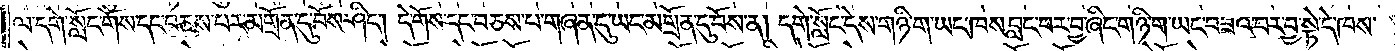ལ་དགེ་སློང་གོས་དང་བཅས་པར་མགྲོན་དུ་བོས་ཤིང༌། དེ་གོས་དང་བཅས་པ་གཞན་དུ་ཡང་མགྲོན་དུ་བོས་ན། དགེ་སློང་དེས་གཉི་ག་ཡང་ཁས་བླང་བར་བྱ་ཞིང་གཉི་ག་ཡང་བཟའ་བར་བྱ་སྟེ་དེ་ཁས་
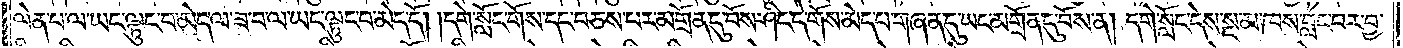ལེན་པ་ལ་ཡང་ལྟུང་བ་མེད་ལ་ཟ་བ་ལ་ཡང་ལྟུང་བ་མེད་དོ། །དགེ་སློང་གོས་དང་བཅས་པར་མགྲོན་དུ་བོས་ཤིང་དེ་གོས་མེད་པ་གཞན་དུ་ཡང་མགྲོན་དུ་བོས་ན། དགེ་སློང་དེས་སྔ་མ་ཁས་བླང་བར་བྱ་
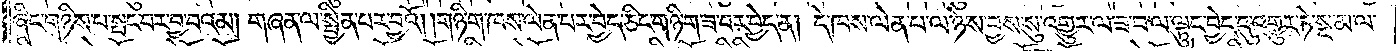ཞིང་གཉིས་པ་སྤང་བར་བྱ་བའམ། གཞན་ལ་སྦྱིན་པར་བྱའོ། །གཉི་ག་ཁས་ལེན་པར་བྱེད་ཅིང་གཉི་ག་ཟ་བར་བྱེད་ན། དེ་ཁས་ལེན་པ་ལ་ཉེས་བྱས་སུ་འགྱུར་ལ་ཟ་བ་ལ་ལྟུང་བྱེད་དུ་འགྱུར་ཏེ་སྔ་མ་ལ་
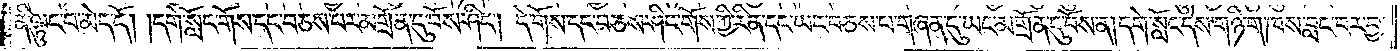ནི་ལྟུང་བ་མེད་དོ། །དགེ་སློང་གོས་དང་བཅས་པར་མགྲོན་དུ་བོས་ཤིང༌། དེ་གོས་དང་བཅས་ཤིང་གོས་ཀྱི་རིན་དང་ཡང་བཅས་པ་གཞན་དུ་ཡང་མགྲོན་དུ་བོས་ན། དགེ་སློང་དེས་གཉི་ག་ཁས་བླང་བར་བྱ་
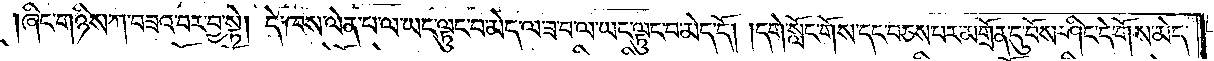ཞིང་གཉིས་ཀ་བཟའ་བར་བྱ་སྟེ། དེ་ཁས་ལེན་པ་ལ་ཡང་ལྟུང་བ་མེད་ལ་ཟ་བ་ལ་ཡང་ལྟུང་བ་མེད་དོ། །དགེ་སློང་གོས་དང་བཅས་པར་མགྲོན་དུ་བོས་ཤིང་དེ་གོས་མེད་
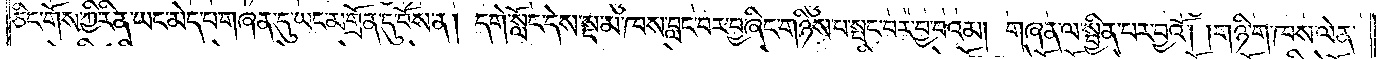ཅིང་གོས་ཀྱི་རིན་ཡང་མེད་པ་གཞན་དུ་ཡང་མགྲོན་དུ་བོས་ན། དགེ་སློང་དེས་སྔ་མ་ཁས་བླང་བར་བྱ་ཞིང་གཉིས་པ་སྤང་བར་བྱ་བའམ། གཞན་ལ་སྦྱིན་པར་བྱའོ། །གཉི་ག་ཁས་ལེན་
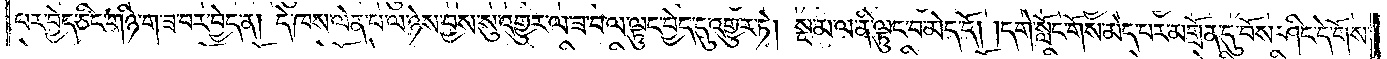པར་བྱེད་ཅིང་གཉི་ག་ཟ་བར་བྱེད་ན། དེ་ཁས་ལེན་པ་ལ་ཉེས་བྱས་སུ་འགྱུར་ལ་ཟ་བ་ལ་ལྟུང་བྱེད་དུ་འགྱུར་ཏེ། སྔ་མ་ལ་ནི་ལྟུང་བ་མེད་དོ། །དགེ་སློང་གོས་མེད་པར་མགྲོན་དུ་བོས་ཤིང་དེ་གོས་
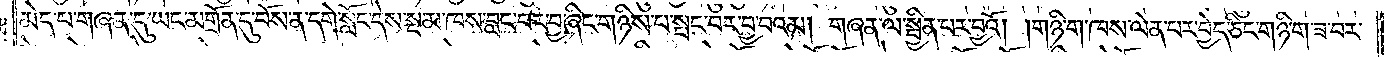མེད་པ་གཞན་དུ་ཡང་མགྲོན་དུ་བོས་ན་དགེ་སློང་དེས་སྔ་མ་ཁས་བླང་བར་བྱ་ཞིང་གཉིས་པ་སྤང་བར་བྱ་བའམ། གཞན་ལ་སྦྱིན་པར་བྱའོ། །གཉི་ག་ཁས་ལེན་པར་བྱེད་ཅིང་གཉི་ག་ཟ་བར་
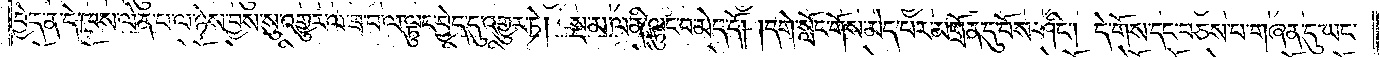བྱེད་ན་དེ་ཁས་ལེན་པ་ལ་ཉེས་བྱས་སུ་འགྱུར་ལ་ཟ་བ་ལ་ལྟུང་བྱེད་དུ་འགྱུར་ཏེ། སྔ་མ་ལ་ནི་ལྟུང་བ་མེད་དོ། །དགེ་སློང་གོས་མེད་པར་མགྲོན་དུ་བོས་ཤིང༌། དེ་གོས་དང་བཅས་པ་གཞན་དུ་ཡང་
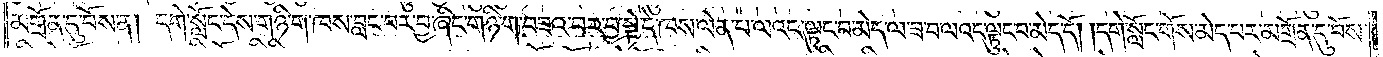མགྲོན་དུ་བོས་ན། དགེ་སློང་དེས་གཉི་ག་ཁས་བླང་བར་བྱ་ཞིང་གཉི་ག་བཟའ་བར་བྱ་སྟེ་དེ་ཁས་ལེན་པ་ལའང་ལྟུང་བ་མེད་ལ་ཟ་བ་ལའང་ལྟུང་བ་མེད་དོ། །དགེ་སློང་གོས་མེད་པར་མགྲོན་དུ་བོས་
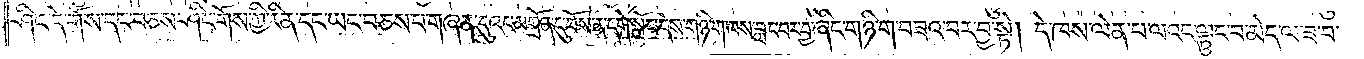ཤིང་དེ་གོས་དང་བཅས་ཤིང་གོས་ཀྱི་རིན་དང་ཡང་བཅས་པ་གཞན་དུའང་མགྲོན་དུ་བོས་ན་དགེ་སློང་དེས་གཉི་ག་ཁས་བླང་བར་བྱ་ཞིང་གཉི་ག་བཟའ་བར་བྱ་སྟེ། དེ་ཁས་ལེན་པ་ལའང་ལྟུང་བ་མེད་ལ་ཟ་བ་
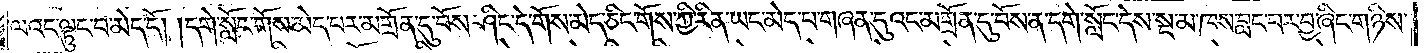ལའང་ལྟུང་བ་མེད་དོ། །དགེ་སློང་གོས་མེད་པར་མགྲོན་དུ་བོས་ཤིང་དེ་གོས་མེད་ཅིང་གོས་ཀྱི་རིན་ཡང་མེད་པ་གཞན་དུ་འང་མགྲོན་དུ་བོས་ན་དགེ་སློང་དེས་སྔ་མ་ཁས་བླང་བར་བྱ་ཞིང་གཉིས་
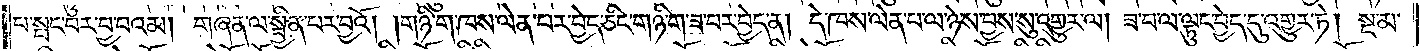པ་སྤང་བར་བྱ་བའམ། གཞན་ལ་སྦྱིན་པར་བྱའོ། །གཉི་ག་ཁས་ལེན་པར་བྱེད་ཅིང་གཉི་ག་ཟ་བར་བྱེད་ན། དེ་ཁས་ལེན་པ་ལ་ཉེས་བྱས་སུ་འགྱུར་ལ། ཟ་བ་ལ་ལྟུང་བྱེད་དུ་འགྱུར་ཏེ། སྔ་མ་
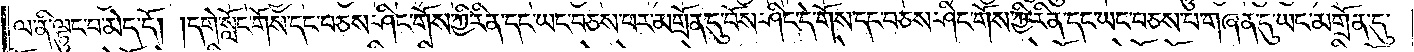ལ་ནི་ལྟུང་བ་མེད་དོ། །དགེ་སློང་གོས་དང་བཅས་ཤིང་གོས་ཀྱི་རིན་དང་ཡང་བཅས་པར་མགྲོན་དུ་བོས་ཤིང་དེ་གོས་དང་བཅས་ཤིང་གོས་ཀྱི་རིན་དང་ཡང་བཅས་པ་གཞན་དུ་ཡང་མགྲོན་དུ་
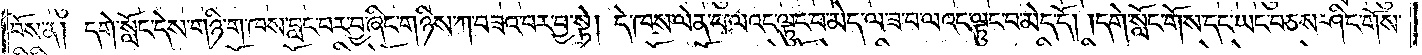བོས་ན། དགེ་སློང་དེས་གཉི་ག་ཁས་བླང་བར་བྱ་ཞིང་གཉིས་ཀ་བཟའ་བར་བྱ་སྟེ། དེ་ཁས་ལེན་པ་ལའང་ལྟུང་བ་མེད་ལ་ཟ་བ་ལའང་ལྟུང་བ་མེད་དོ། །དགེ་སློང་གོས་དང་ཡང་བཅས་ཤིང་གོས་
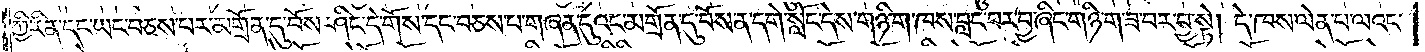ཀྱི་རིན་དང་ཡང་བཅས་པར་མགྲོན་དུ་བོས་ཤིང་དེ་གོས་དང་བཅས་པ་གཞན་དུའང་མགྲོན་དུ་བོས་ན་དགེ་སློང་དེས་གཉི་ག་ཁས་བླང་བར་བྱ་ཞིང་གཉི་ག་ཟ་བར་བྱ་སྟེ། དེ་ཁས་ལེན་པ་ལའང་
